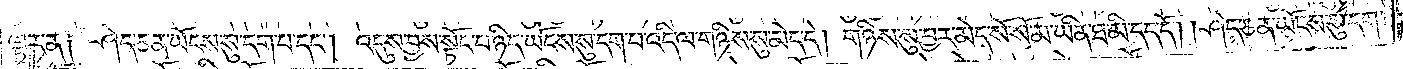ལྟར་ན༑ ཤེད་ཅན་ཡོངས་སུ་དག་པ་དང༌། འདུས་བྱས་སྟོང་པ་ཉིད་ཡོངས་སུ་དག་པ་འདི་ལ་གཉིས་སུ་མེད་དེ། གཉིས་སུ་བྱར་མེད་སོ་སོ་མ་ཡིན་ཐ་མི་དད་དོ། །ཤེད་ཅན་ཡོངས་སུ་དག་
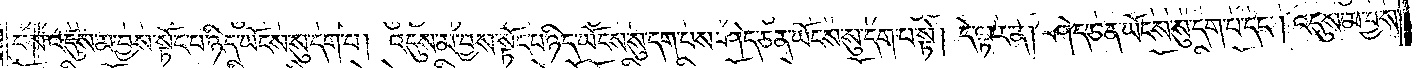པས་འདུས་མ་བྱས་སྟོང་པ་ཉིད་ཡོངས་སུ་དག་པ། འདུས་མ་བྱས་སྟོང་པ་ཉིད་ཡོངས་སུ་དག་པས་ཤེད་ཅན་ཡོངས་སུ་དག་པ་སྟེ། དེ་ལྟར་ན། ཤེད་ཅན་ཡོངས་སུ་དག་པ་དང༌། འདུས་མ་བྱས་
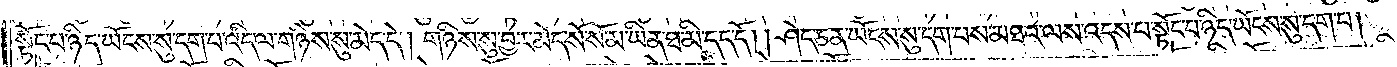སྟོང་པ་ཉིད་ཡོངས་སུ་དག་པ་འདི་ལ་གཉིས་སུ་མེད་དེ། གཉིས་སུ་བྱར་མེད་སོ་སོ་མ་ཡིན་ཐ་མི་དད་དོ། །ཤེད་ཅན་ཡོངས་སུ་དག་པས་མཐའ་ལས་འདས་པ་སྟོང་པ་ཉིད་ཡོངས་སུ་དག་པ།
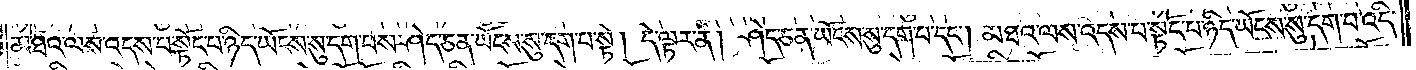མཐའ་ལས་འདས་པ་སྟོང་པ་ཉིད་ཡོངས་སུ་དག་པས་ཤེད་ཅན་ཡོངས་སུ་དག་པ་སྟེ། དེ་ལྟར་ན། ཤེད་ཅན་ཡོངས་སུ་དག་པ་དང༌། མཐའ་ལས་འདས་པ་སྟོང་པ་ཉིད་ཡོངས་སུ་དག་པ་འདི་
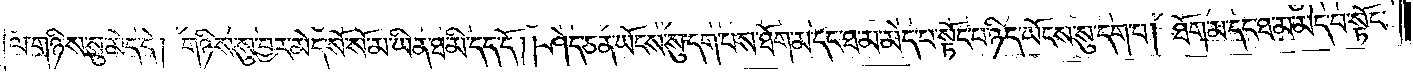ལ་གཉིས་སུ་མེད་དེ། གཉིས་སུ་བྱར་མེད་སོ་སོ་མ་ཡིན་ཐ་མི་དད་དོ། །ཤེད་ཅན་ཡོངས་སུ་དག་པས་ཐོག་མ་དང་ཐ་མ་མེད་པ་སྟོང་པ་ཉིད་ཡོངས་སུ་དག་པ། ཐོག་མ་དང་ཐ་མ་མེད་པ་སྟོང་
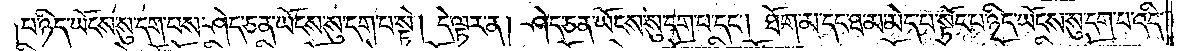པ་ཉིད་ཡོངས་སུ་དག་པས་ཤེད་ཅན་ཡོངས་སུ་དག་པ་སྟེ། དེ་ལྟར་ན། ཤེད་ཅན་ཡོངས་སུ་དག་པ་དང༌། ཐོག་མ་དང་ཐ་མ་མེད་པ་སྟོང་པ་ཉིད་ཡོངས་སུ་དག་པ་འདི་
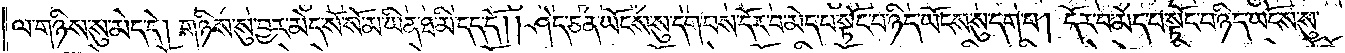ལ་གཉིས་སུ་མེད་དེ། གཉིས་སུ་བྱར་མེད་སོ་སོ་མ་ཡིན་ཐ་མི་དད་དོ། །ཤེད་ཅན་ཡོངས་སུ་དག་པས་དོར་བ་མེད་པ་སྟོང་པ་ཉིད་ཡོངས་སུ་དག་པ། དོར་བ་མེད་པ་སྟོང་པ་ཉིད་ཡོངས་སུ་
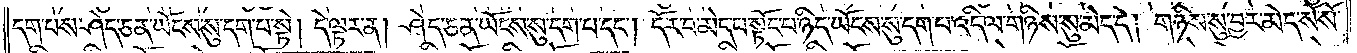དག་པས་ཤེད་ཅན་ཡོངས་སུ་དག་པ་སྟེ། དེ་ལྟར་ན། ཤེད་ཅན་ཡོངས་སུ་དག་པ་དང༌། དོར་བ་མེད་པ་སྟོང་པ་ཉིད་ཡོངས་སུ་དག་པ་འདི་ལ་གཉིས་སུ་མེད་དེ། གཉིས་སུ་བྱར་མེད་སོ་སོ་
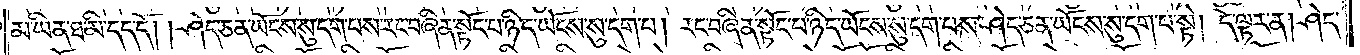མ་ཡིན་ཐ་མི་དད་དོ། །ཤེད་ཅན་ཡོངས་སུ་དག་པས་རང་བཞིན་སྟོང་པ་ཉིད་ཡོངས་སུ་དག་པ། རང་བཞིན་སྟོང་པ་ཉིད་ཡོངས་སུ་དག་པས་ཤེད་ཅན་ཡོངས་སུ་དག་པ་སྟེ། དེ་ལྟར་ན། ཤེད་
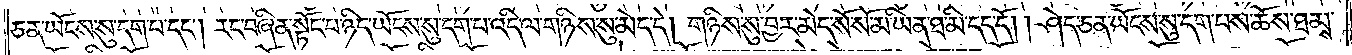ཅན་ཡོངས་སུ་དག་པ་དང༌། རང་བཞིན་སྟོང་པ་ཉིད་ཡོངས་སུ་དག་པ་འདི་ལ་གཉིས་སུ་མེད་དེ། གཉིས་སུ་བྱར་མེད་སོ་སོ་མ་ཡིན་ཐ་མི་དད་དོ། །ཤེད་ཅན་ཡོངས་སུ་དག་པས་ཆོས་ཐམས་
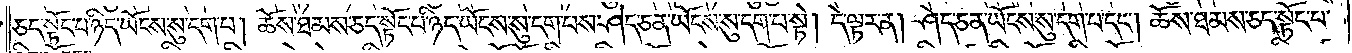ཅད་སྟོང་པ་ཉིད་ཡོངས་སུ་དག་པ། ཆོས་ཐམས་ཅད་སྟོང་པ་ཉིད་ཡོངས་སུ་དག་པས་ཤེད་ཅན་ཡོངས་སུ་དག་པ་སྟེ། དེ་ལྟར་ན། ཤེད་ཅན་ཡོངས་སུ་དག་པ་དང༌། ཆོས་ཐམས་ཅད་སྟོང་པ་
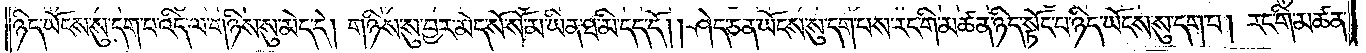ཉིད་ཡོངས་སུ་དག་པ་འདི་ལ་གཉིས་སུ་མེད་དེ། གཉིས་སུ་བྱར་མེད་སོ་སོ་མ་ཡིན་ཐ་མི་དད་དོ། །ཤེད་ཅན་ཡོངས་སུ་དག་པས་རང་གི་མཚན་ཉིད་སྟོང་པ་ཉིད་ཡོངས་སུ་དག་པ། རང་གི་མཚན་
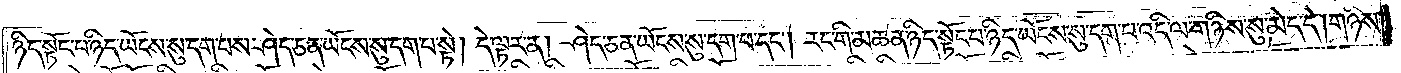ཉིད་སྟོང་པ་ཉིད་ཡོངས་སུ་དག་པས་ཤེད་ཅན་ཡོངས་སུ་དག་པ་སྟེ། དེ་ལྟར་ན། ཤེད་ཅན་ཡོངས་སུ་དག་པ་དང༌། རང་གི་མཚན་ཉིད་སྟོང་པ་ཉིད་ཡོངས་སུ་དག་པ་འདི་ལ་གཉིས་སུ་མེད་དེ། གཉིས་
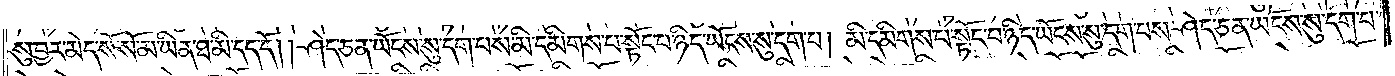སུ་བྱར་མེད་སོ་སོ་མ་ཡིན་ཐ་མི་དད་དོ། །ཤེད་ཅན་ཡོངས་སུ་དག་པས་མི་དམིགས་པ་སྟོང་པ་ཉིད་ཡོངས་སུ་དག་པ། མི་དམིགས་པ་སྟོང་པ་ཉིད་ཡོངས་སུ་དག་པས་ཤེད་ཅན་ཡོངས་སུ་དག་པ་
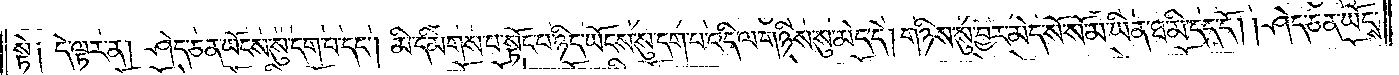སྟེ༑ དེ་ལྟར་ན། ཤེད་ཅན་ཡོངས་སུ་དག་པ་དང༌། མི་དམིགས་པ་སྟོང་པ་ཉིད་ཡོངས་སུ་དག་པ་འདི་ལ་གཉིས་སུ་མེད་དེ། གཉིས་སུ་བྱར་མེད་སོ་སོ་མ་ཡིན་ཐ་མི་དད་དོ། །ཤེད་ཅན་ཡོངས་
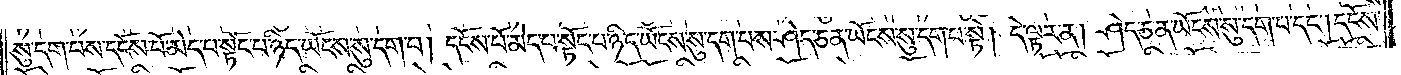སུ་དག་པས་དངོས་པོ་མེད་པ་སྟོང་པ་ཉིད་ཡོངས་སུ་དག་པ། དངོས་པོ་མེད་པ་སྟོང་པ་ཉིད་ཡོངས་སུ་དག་པས་ཤེད་ཅན་ཡོངས་སུ་དག་པ་སྟེ། དེ་ལྟར་ན། ཤེད་ཅན་ཡོངས་སུ་དག་པ་དང༌། དངོས་
